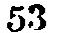53
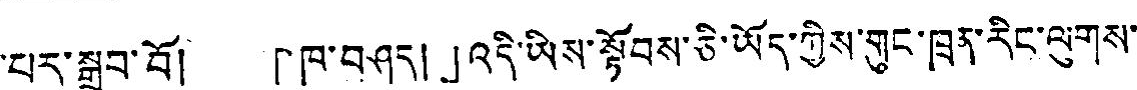པར་སྒྲུབ་བོ། 「ཁ་བཤད།」འདི་ཡིས་སྟོབས་ཅི་ཡོད་ཀྱིས་གུང་ཁྲན་རིང་ལུགས་
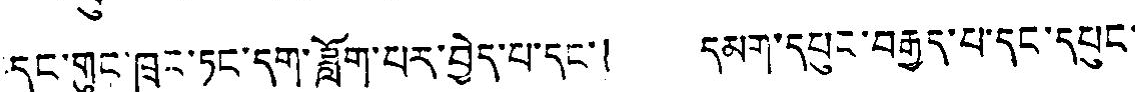དང་གུང་ཁྲང་ཏང་དག་ཟློག་པར་བྱེད་པ་དང་། དམག་དཔུང་བརྒྱད་པ་དང་དཔུང་
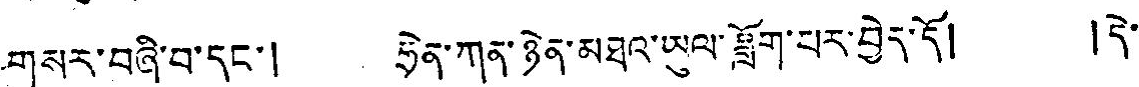གསར་བཞི་བ་དང་། ཧྲེན་ཀན་ཉེན་མཐའ་ཡུལ་ཟློག་པར་བྱེད་དོ། །དེ་
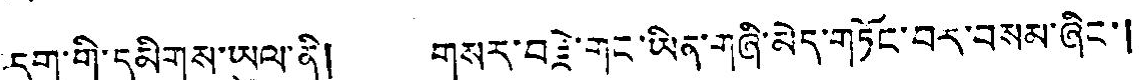དག་གི་དམིགས་ཡུལ་ནི། གསར་བརྗེ་གང་ཡིན་གཞི་མེད་གཏོང་བར་བསམ་ཞིང་།
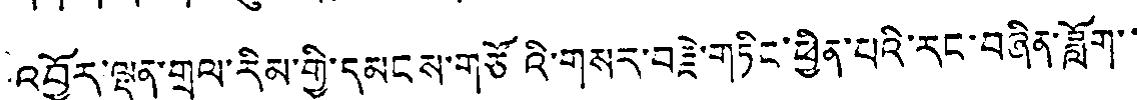འབྱོར་ལྡན་གྲལ་རིམ་གྱི་དམངས་གཙོའི་གསར་བརྗེ་གཏིང་ཕྱིན་པའི་རང་བཞིན་ཟློག་་
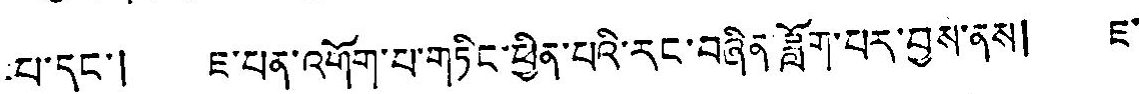པ་དང་། ཇ་པན་འགོག་པ་གཏིང་ཕྱིན་པའི་རང་བཞིན་ཟློག་པར་བྱས་ནས། ཇ་
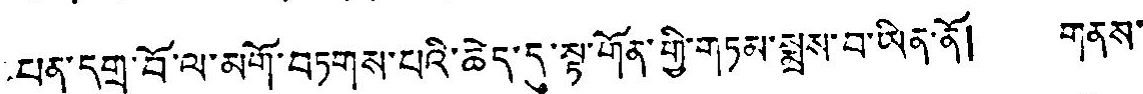པན་དགྲ་བོ་ལ་མགོ་བཏགས་པའི་ཆེད་དུ་སྟ་གོན་གྱི་གཏམ་སྨྲས་བ་ཡིན་ནོ། གནས་
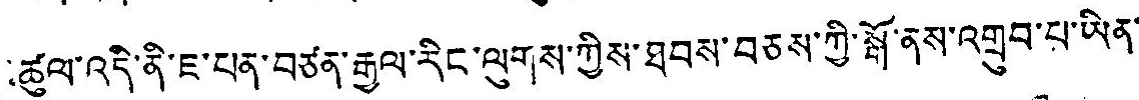ཚུལ་འདི་ནི་ཇ་པན་བཙན་རྒྱལ་རིང་ལུགས་ཀྱིས་ཐབས་བཅས་ཀྱི་སྒོ་ནས་འགྲུབ་པ་ཡིན་
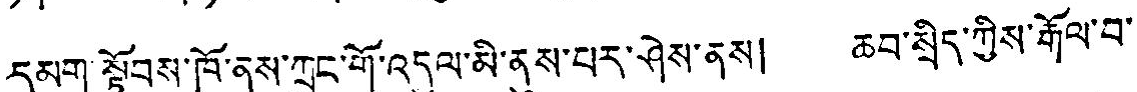དམག་སྟོབས་ཁོ་ནས་ཀྲུང་གོ་འདུལ་མི་ནུས་པར་ཤེས་ནས། ཆབ་སྲིད་ཀྱིས་རྒོལ་བ་
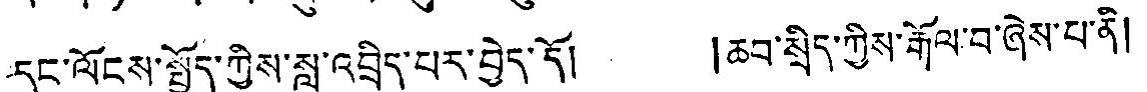དང་ལོངས་སྤྱོད་ཀྱིས་སླུ་འབྲིད་པར་བྱེད་དོ། །ཆབ་སྲིད་ཀྱིས་རྒོལ་བ་ཞེས་པ་ནི།
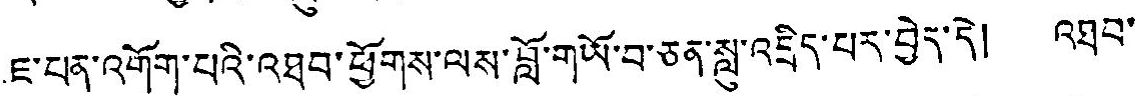ཇ་པན་འགོག་པའི་འཐབ་ཕྱོགས་ལས་བློ་གཡོ་བ་ཅན་སླུ་འདྲིད་པར་བྱེད་དེ། འཐབ་
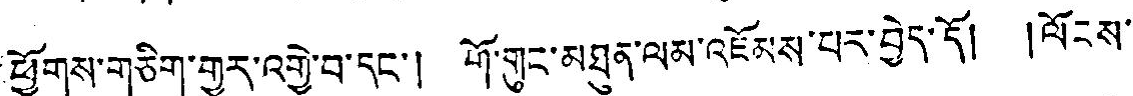ཕྱོགས་གཅིག་གྱུར་འགྱི་བ་དང་། གོ་གུང་མཐུན་ལམ་འཇོམས་པར་བྱེད་དོ། །ལོངས་
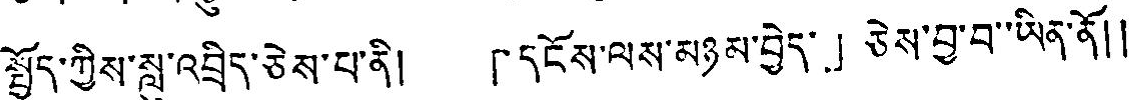སྤྱོད་ཀྱིས་སླུ་འབྲིད་ཅེས་པ་ནི། 「དངོས་ལས་མཉམ་བྱེད་」ཅེས་བྱ་བ་ཡིན་ནོ།།
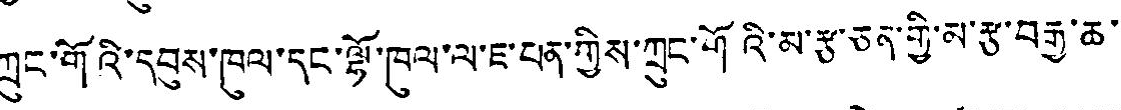ཀྲུང་གོའི་དབུས་ཁུལ་དང་ལྷོ་ཁུལ་ལ་ཇ་པན་ཀྱིས་ཀྲུང་གོའི་མ་རྩ་ཅན་གྱི་མ་རྩ་བརྒྱ་ཆ་
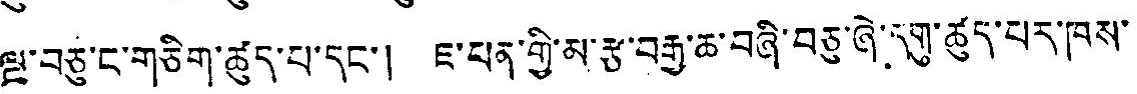ལྔ་བཅུ་ང་གཅིག་ཚུད་པ་དང་། ཇ་པན་གྱི་མ་རྩ་བརྒྱ་ཆ་བཞི་བཅུ་ཞེ་དགུ་ཚུད་པར་ཁས་
